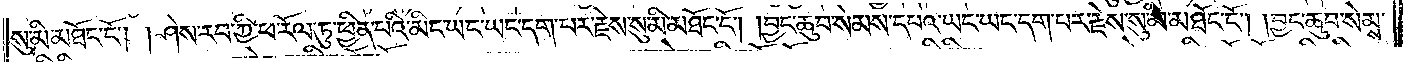སུ་མི་མཐོང་ངོ༌། །ཤེས་རབ་ཀྱི་ཕ་རོལ་ཏུ་ཕྱིན་པའི་མིང་ཡང་ཡང་དག་པར་རྗེས་སུ་མི་མཐོང་ངོ༌། །བྱང་ཆུབ་སེམས་དཔའ་ཡང་ཡང་དག་པར་རྗེས་སུ་མི་མཐོང་ངོ༌། །བྱང་ཆུབ་སེམས་
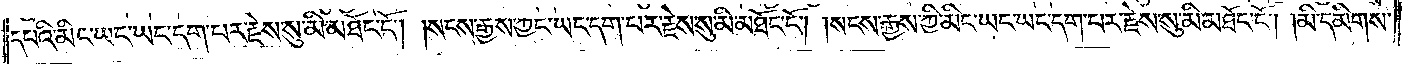དཔའི་མིང་ཡང་ཡང་དག་པར་རྗེས་སུ་མི་མཐོང་ངོ༌། །སངས་རྒྱས་ཀྱང་ཡང་དག་པར་རྗེས་སུ་མི་མཐོང་ངོ༌། །སངས་རྒྱས་ཀྱི་མིང་ཡང་ཡང་དག་པར་རྗེས་སུ་མི་མཐོང་ངོ༌། །མི་དམིགས་
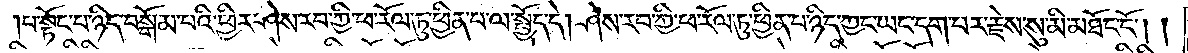པ་སྟོང་པ་ཉིད་བསྒོམ་པའི་ཕྱིར་ཤེས་རབ་ཀྱི་ཕ་རོལ་ཏུ་ཕྱིན་པ་ལ་སྤྱོད་དེ། ཤེས་རབ་ཀྱི་ཕ་རོལ་ཏུ་ཕྱིན་པ་ཉིད་ཀྱང་ཡང་དག་པར་རྗེས་སུ་མི་མཐོང་ངོ༌། །
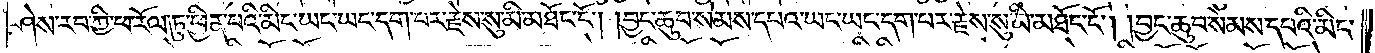ཤེས་རབ་ཀྱི་ཕ་རོལ་ཏུ་ཕྱིན་པའི་མིང་ཡང་ཡང་དག་པར་རྗེས་སུ་མི་མཐོང་ངོ༌། །བྱང་ཆུབ་སེམས་དཔའ་ཡང་ཡང་དག་པར་རྗེས་སུ་མི་མཐོང་ངོ༌། །བྱང་ཆུབ་སེམས་དཔའི་མིང་
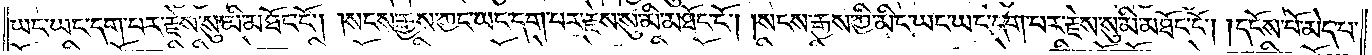ཡང་ཡང་དག་པར་རྗེས་སུ་མི་མཐོང་ངོ༌། །སངས་རྒྱས་ཀྱང་ཡང་དག་པར་རྗེས་སུ་མི་མཐོང་ངོ༌། །སངས་རྒྱས་ཀྱི་མིང་ཡང་ཡང་དག་པར་རྗེས་སུ་མི་མཐོང་ངོ༌། །དངོས་པོ་མེད་པ་
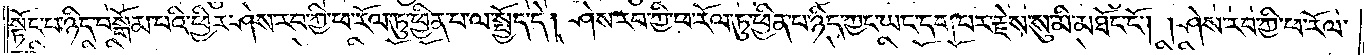སྟོང་པ་ཉིད་བསྒོམ་པའི་ཕྱིར་ཤེས་རབ་ཀྱི་ཕ་རོལ་ཏུ་ཕྱིན་པ་ལ་སྤྱོད་དེ། ཤེས་རབ་ཀྱི་ཕ་རོལ་ཏུ་ཕྱིན་པ་ཉིད་ཀྱང་ཡང་དག་པར་རྗེས་སུ་མི་མཐོང་ངོ༌། །ཤེས་རབ་ཀྱི་ཕ་རོལ་
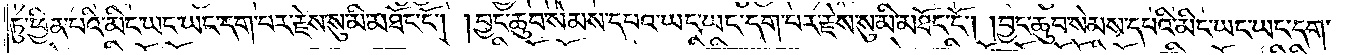ཏུ་ཕྱིན་པའི་མིང་ཡང་ཡང་དག་པར་རྗེས་སུ་མི་མཐོང་ངོ༌། །བྱང་ཆུབ་སེམས་དཔའ་ཡང་ཡང་དག་པར་རྗེས་སུ་མི་མཐོང་ངོ༌། །བྱང་ཆུབ་སེམས་དཔའི་མིང་ཡང་ཡང་དག་
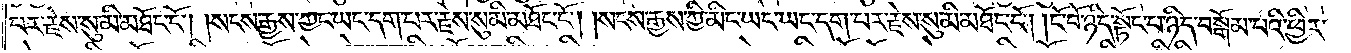པར་རྗེས་སུ་མི་མཐོང་ངོ༌། །སངས་རྒྱས་ཀྱང་ཡང་དག་པར་རྗེས་སུ་མི་མཐོང་ངོ༌། །སངས་རྒྱས་ཀྱི་མིང་ཡང་ཡང་དག་པར་རྗེས་སུ་མི་མཐོང་ངོ༌། །ངོ་བོ་ཉིད་སྟོང་པ་ཉིད་བསྒོམ་པའི་ཕྱིར་
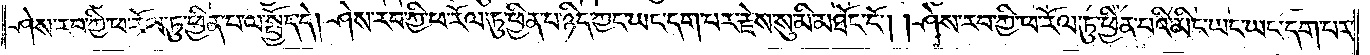ཤེས་རབ་ཀྱི་ཕ་རོལ་ཏུ་ཕྱིན་པ་ལ་སྤྱོད་དེ། ཤེས་རབ་ཀྱི་ཕ་རོལ་ཏུ་ཕྱིན་པ་ཉིད་ཀྱང་ཡང་དག་པར་རྗེས་སུ་མི་མཐོང་ངོ༌། །ཤེས་རབ་ཀྱི་ཕ་རོལ་ཏུ་ཕྱིན་པའི་མིང་ཡང་ཡང་དག་པར་
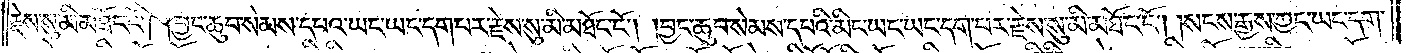རྗེས་སུ་མི་མཐོང་ངོ༌། །བྱང་ཆུབ་སེམས་དཔའ་ཡང་ཡང་དག་པར་རྗེས་སུ་མི་མཐོང་ངོ༌། །བྱང་ཆུབ་སེམས་དཔའི་མིང་ཡང་ཡང་དག་པར་རྗེས་སུ་མི་མཐོང་ངོ༌། །སངས་རྒྱས་ཀྱང་ཡང་དག་
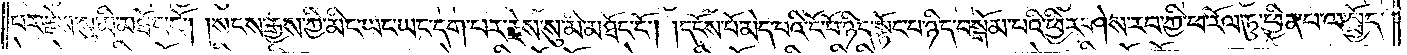པར་རྗེས་སུ་མི་མཐོང་ངོ༌། །སངས་རྒྱས་ཀྱི་མིང་ཡང་ཡང་དག་པར་རྗེས་སུ་མི་མཐོང་ངོ༌། །དངོས་པོ་མེད་པའི་ངོ་བོ་ཉིད་སྟོང་པ་ཉིད་བསྒོམ་པའི་ཕྱིར་ཤེས་རབ་ཀྱི་ཕ་རོལ་ཏུ་ཕྱིན་པ་ལ་སྤྱོད་
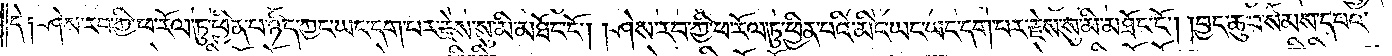དེ༑ ཤེས་རབ་ཀྱི་ཕ་རོལ་ཏུ་ཕྱིན་པ་ཉིད་ཀྱང་ཡང་དག་པར་རྗེས་སུ་མི་མཐོང་ངོ༌། །ཤེས་རབ་ཀྱི་ཕ་རོལ་ཏུ་ཕྱིན་པའི་མིང་ཡང་ཡང་དག་པར་རྗེས་སུ་མི་མཐོང་ངོ༌། །བྱང་ཆུབ་སེམས་དཔའ་
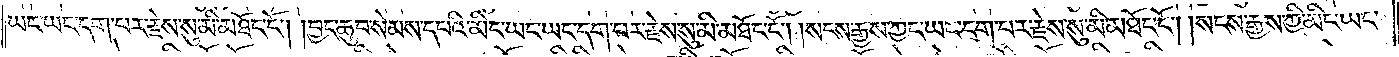ཡང་ཡང་དག་པར་རྗེས་སུ་མི་མཐོང་ངོ༌། །བྱང་ཆུབ་སེམས་དཔའི་མིང་ཡང་ཡང་དག་པར་རྗེས་སུ་མི་མཐོང་ངོ༌། །སངས་རྒྱས་ཀྱང་ཡང་དག་པར་རྗེས་སུ་མི་མཐོང་ངོ༌། །སངས་རྒྱས་ཀྱི་མིང་ཡང་
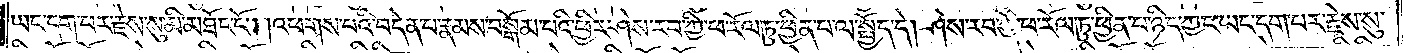ཡང་དག་པར་རྗེས་སུ་མི་མཐོང་ངོ༌། །འཕགས་པའི་བདེན་པ་རྣམས་བསྒོམ་པའི་ཕྱིར་ཤེས་རབ་ཀྱི་ཕ་རོལ་ཏུ་ཕྱིན་པ་ལ་སྤྱོད་དེ། ཤེས་རབ་ཀྱི་ཕ་རོལ་ཏུ་ཕྱིན་པ་ཉིད་ཀྱང་ཡང་དག་པར་རྗེས་སུ་
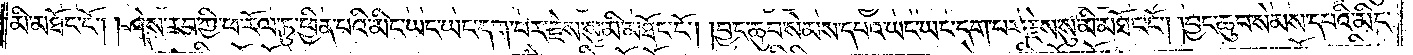མི་མཐོང་ངོ༌། །ཤེས་རབ་ཀྱི་ཕ་རོལ་ཏུ་ཕྱིན་པའི་མིང་ཡང་ཡང་དག་པར་རྗེས་སུ་མི་མཐོང་ངོ༌། །བྱང་ཆུབ་སེམས་དཔའ་ཡང་ཡང་དག་པར་རྗེས་སུ་མི་མཐོང་ངོ༌། །བྱང་ཆུབ་སེམས་དཔའི་མིང་
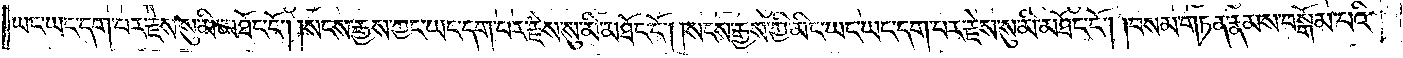ཡང་ཡང་དག་པར་རྗེས་སུ་མི་མཐོང་ངོ༌། །སངས་རྒྱས་ཀྱང་ཡང་དག་པར་རྗེས་སུ་མི་མཐོང་ངོ༌། །སངས་རྒྱས་ཀྱི་མིང་ཡང་ཡང་དག་པར་རྗེས་སུ་མི་མཐོང་ངོ༌། །བསམ་གཏན་རྣམས་བསྒོམ་པའི་
